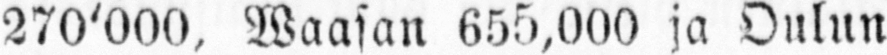270'000, Waasan 655,000 ja Oulun
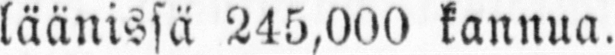läänissä 245,000 kannua.
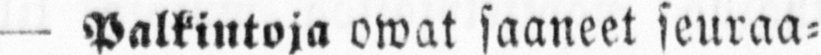— Palkintoja owat saaneet seuraa-
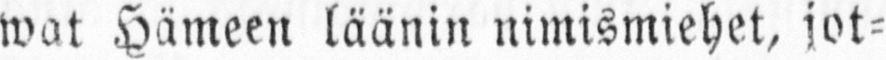wat Hämeen läänin nimismiehet, jot-
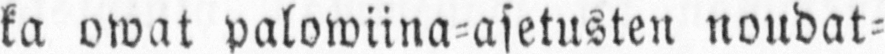ka owat palowiina-asetusten noudat-
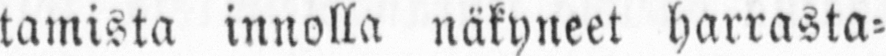tamista innolla näkyneet harrasta-
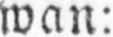wan:
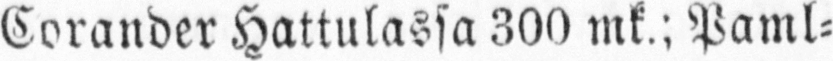Corander Hattulassa 300 mk.; Paml-
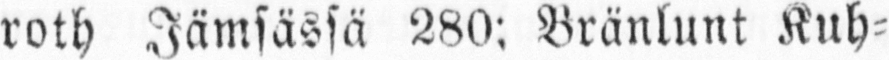roth Jämsässä 280; Bränlunt Kuh-
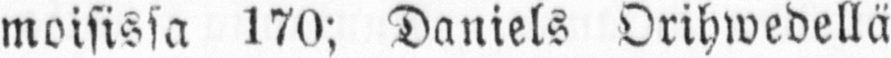moisissa 170; Daniels Orihwedellä
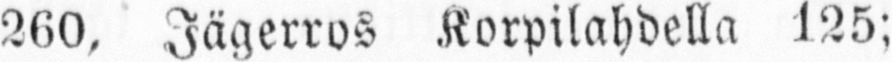260, Jägerros Korpilahdella 125;
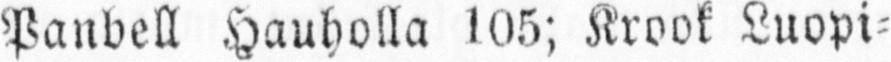Panbell Hauholla 105; Krook Luopi-
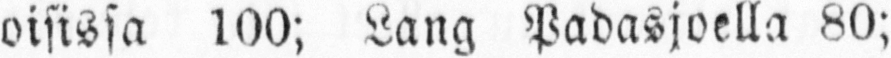oisissa 100; Lang Padasjoella 80;
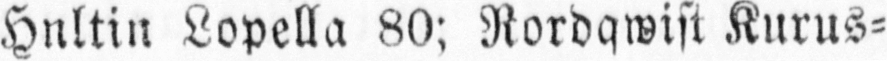Hnltin Lopella 80; Rordqwist Kurus-
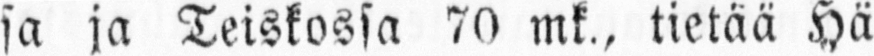sa ja Teiskossa 70 mk., tietää Hä
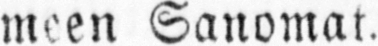meen Sanomat.
